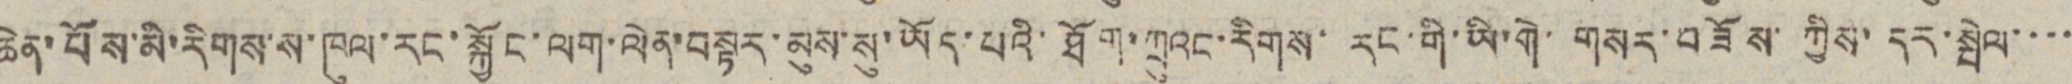ཆེན་པོས་མི་རིགས་ས་ཁུལ་རང་སྐྱོང་ལག་ལེན་བསྟར་མུས་སུ་ཡོད་པའི་ཐོག་ཀྲུའང་རིགས་རང་གི་ཡི་གེ་གསར་བཟོས་ཀྱིས་དར་སྦེལ་་་་
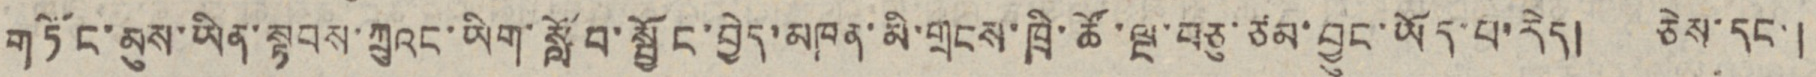གཏོང་མུས་ཡིན་སྟབས་ཀྲུའང་ཡིག་སློབ་སྦྱོང་བྱེད་མཁན་མི་གྲངས་ཁྲི་ཚོ་ལྔ་བཅུ་ཙམ་བྱུང་ཡོད་པ་རེད། ཅེས་དང་།
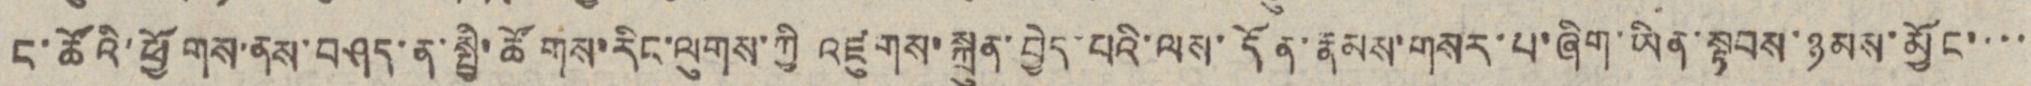ང་ཚོའི་ཕྱོགས་ནས་བཤད་ན་སྤྱི་ཚོགས་རིང་ལུགས་ཀྱི འཛུགས་སྐྲུན་བྱེད་པའི་ལས་དོན་རྣམས་གསར་པ་ཞིག་ཡིན་སྟབས་ཉམས་མྱོང་་་་
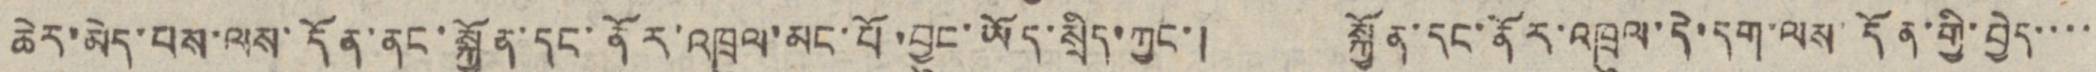ཆེར་མེད་པས་ལས་དོན་ནང་སྐྱོང་དང་ནོར་འཁྲུལ་མང་པོ་བྱུང་ཡོད་སྲིད་ཀྱང་། སྐྱོན་དང་ནོར་འཁྲུལ་དེ་དག་ལས་དོན་གྱི་བྱེད་་་་
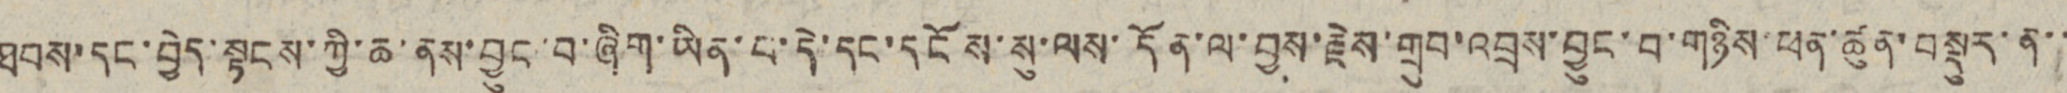ཐབས་དང་བྱེད་སྟངས་ཀྱི་ཆ་ནས་བྱུང་བ་ཞིག་ཡིན་པ་དེ་དང་དངོས་སུ་ལས་དོན་ལ་བྱས་རྗེས་གྲུབ་འབྲས་བྱུང་བ་གཉིས་ཕན་ཚུན་བསྡུར་ན་་
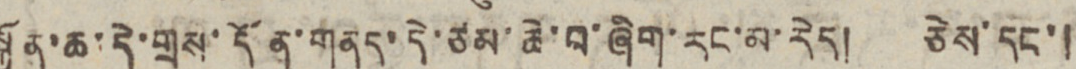སྐྱོན་ཆ་དེ་གྲས་དོན་གནད་དེ་ཙམ་ཆེ་བ་ཞིག་རང་མ་རེད། ཅེས་དང་།
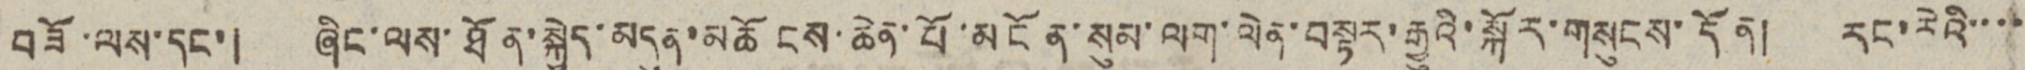བཟོ་ལས་དང་། ཞིང་ལས་ཐོན་སྐྱེད་མདུན་མཚོངས་ཆེན་པོ་མངོན་སུམ་ལག་ལེན་བསྟར་རྒྱུའི་སྐོར་གསུངས་དོན། རང་རེའི་་་་
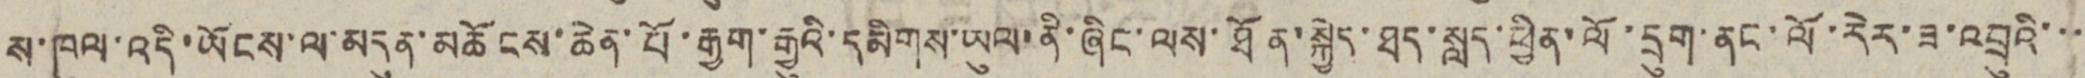ས་ཁུལ་འདི་ཡོངས་ལ་མདུན་མཆོངས་ཆེན་པོ་རྒྱག་རྒྱུའི་དམིགས་ཡུལ་ནི་ཞིང་ལས་ཐོན་སྐྱེད་ཐད་སླད་ཕྱིན་ལོ་དྲུག་ནང་ལོ་རེར་ཟ་འབྲུའི་་་
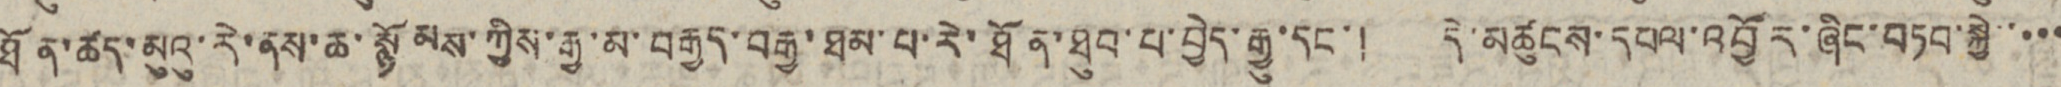ཐོན་ཚད་མུའུ་རེ་ནས་ཆ་སྙོམས་ཀྱིས་རྒྱ་མ་བརྒྱད་བརྒྱ་ཐམ་པ་རེ་ཐོན་ཐུབ་པ་བྱེད་རྒྱུ་དང་། དེ་མཚུངས་དཔལ་འབྱོར་ཞིང་བཏབ་སྐྱེ་་་་་
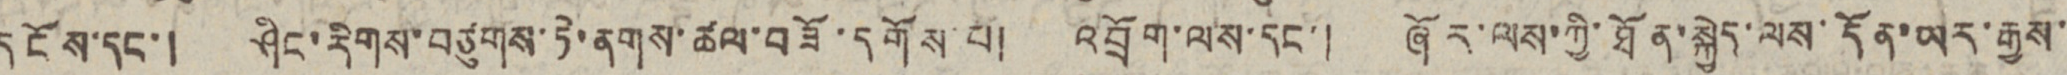དངོས་དང་། ཤིང་རིགས་བཙུགས་ཏེ་ནགས་ཚལ་བཟོ་དགོས་པ། འབྲོག་ལས་དང་། ཞོར་ལས་ཀྱི་ཐོན་སྐྱེད་ལས་དོན་ཡར་རྒྱས་
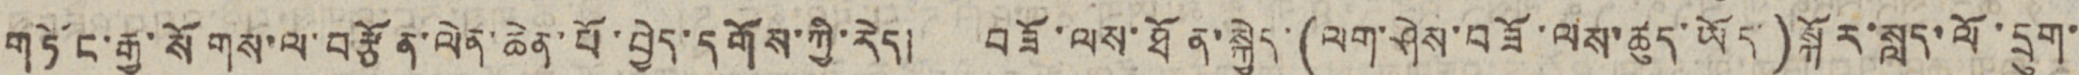གཏོང་རྒྱུ་སོགས་ལ་བརྩོན་ལེན་ཆེན་པོ་བྱེད་དགོས་ཀྱི་རེད། བཟོ་ལས་ཐོན་སྐྱེད་(ལག་ཤེས་བཟོ་ལས་ཚུད་ཡོད་)སྐོར་སླད་ལོ་དྲུག་
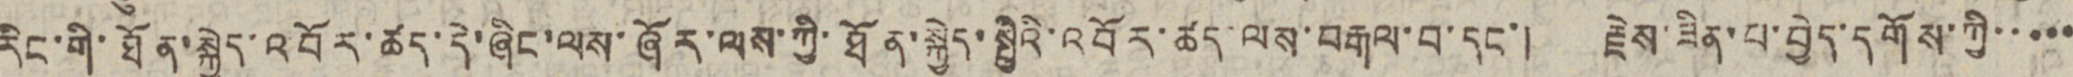རིང་གི་ཐོན་སྐྱེད་འབོར་ཚད་དེ་ཞིང་ལས་ཞོར་ལས་ཀྱི་ཐོན་སྐྱེད་སྤྱིའི་འབོར་ཚད་ལས་བརྒལ་བ་དང་། རྗེས་ཟིན་པ་བྱེད་དགོས་ཀྱི་་་་་
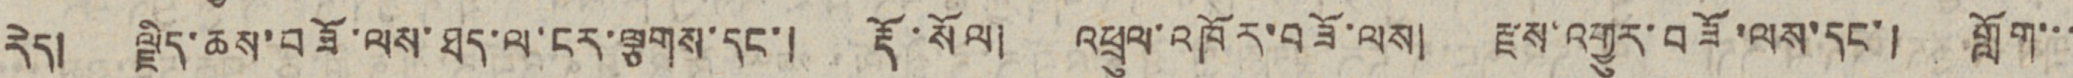རེད། ལྗིད་ཆས་བཟོ་ལས་ཐད་ལ་ངར་ལྕགས་དང་། རྡོ་སོལ། འཕྲུལ་འཁོར་བཟོ་ལས། རྫས་འགྱུར་བཟོ་ལས་དང་། གློག་་་
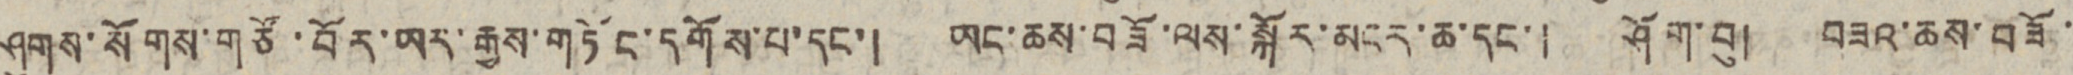ཤུགས་སོགས་གཙོ་བོར་ཡར་རྒྱས་གཏོང་དགོས་པ་དང་། ཡང་ཆས་བཟོ་ལས་སྐོར་མངར་ཆ་དང་། ཤོག་བུ། བཟའ་ཆས་བཟོ་
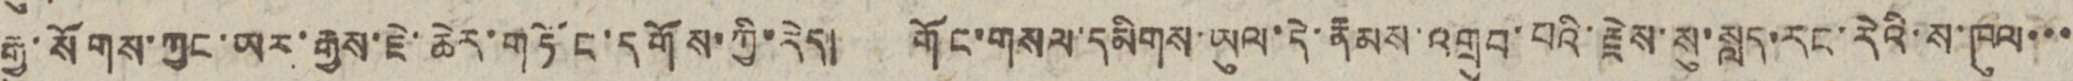རྒྱུ་སོགས་ཀྱང་ཡར་རྒྱས་ཇེ་ཆེར་གཏོང་དགོས་ཀྱི་རེད། གོང་གསལ་དམིགས་ཡུལ་དེ་རྣམས་འགྲུབ་པའི་རྗེས་སུ་སླད་རང་རེའི་ས་ཁུལ་་་
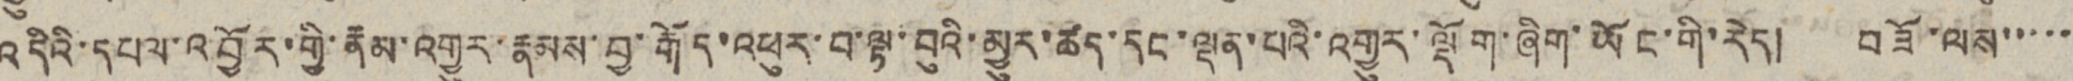འདིའི་དཔལ་འབྱོར་གྱི་རྣམ་འགྱུར་རྣམས་བྱ་རྒོད་འཕུར་བ་ལྟ་བུའི་མྱུར་ཚད་དང་ལྡན་པའི་འགྱུར་ལྡོག་ཞིག་ཡོང་གི་རེད། བཟོ་ལས་་་་་
